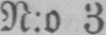N:o 3
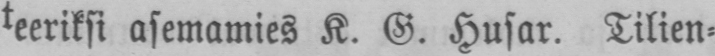teeriksi asemamies K. G. Husar. Tilien-
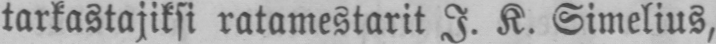tarkastajiksi ratamestarit I. K. Simelius,
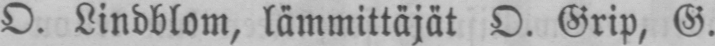O. Lindblom, lämmittäjät O. Grip, G.
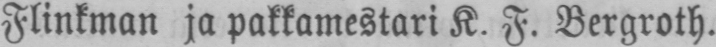Flinkman ja pakkamestari K. F. Bergroth.
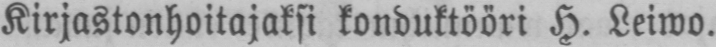Kirjastonhoitajaksi konduktööri H. Leiwo.
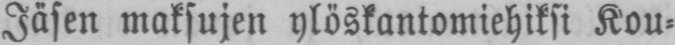Jäsen maksujen ylöskantomiehiksi Kou-
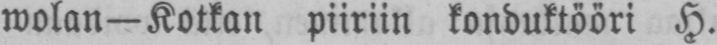wolan—Kotkan piiriin konduktööri H.
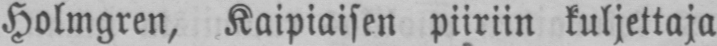Holmgren, Kaipiaisen piiriin kuljettaja
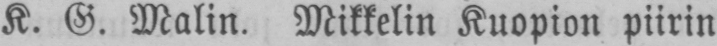K. G. Malin. Mikkelin Kuopion piirin
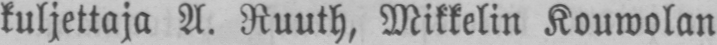kuljettaja A. Ruuth, Mikkelin Kouwolan
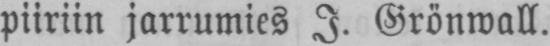piiriin jarrumies I. Grönwall.
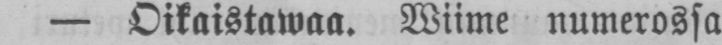- Oikaistawaa. Wiime numerossa
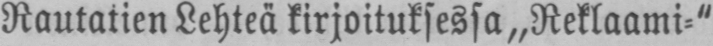Rautatien Lehteä kirjoituksessa Reklaami-"
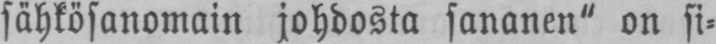sähkösanomain johdosta sananen" on si-
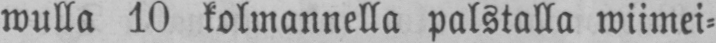wulla 10 kolmannella palstalla wiimei-
